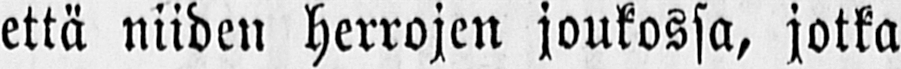että niiden herrojen joukossa, jotka
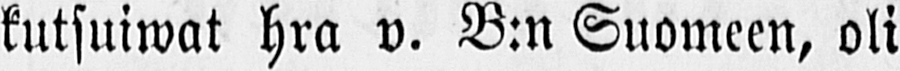kutsuiwat hra v. B:n Suomeen, oli
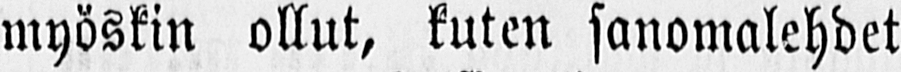myöskin ollut, kuten sanomalehdet
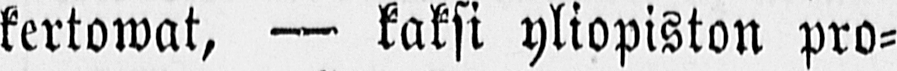kertowat, — kaksi yliopiston pro-
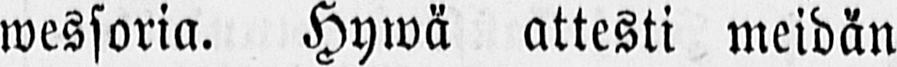wessoria. Hywä attesti meidän
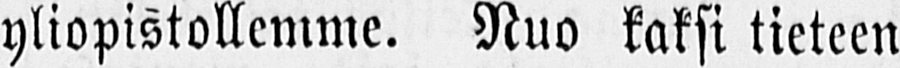yliopistollemme. Nuo kaksi tieteen
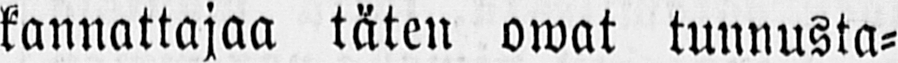kannattajaa täten owat tunnusta-
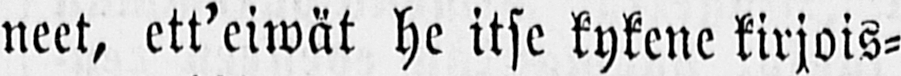neet, ett'eiwät he itse kykene kirjois-
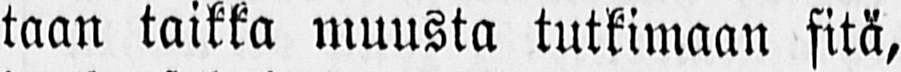taan taikka muusta tutkimaan sitä,
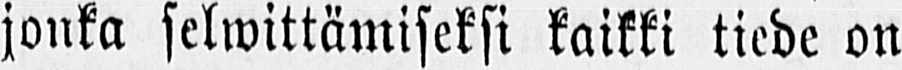jonka selwittämiseksi kaikki tiede on
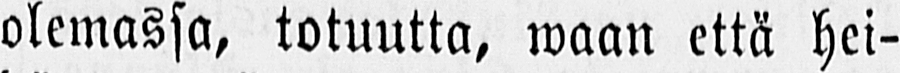olemassa, totuutta, waan että hei-
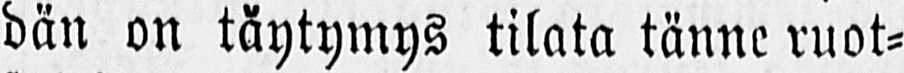dän on täytymys tilata tänne ruot-
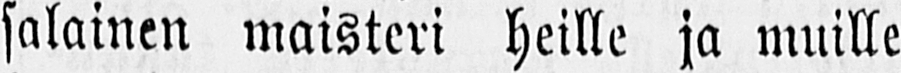salainen maisteri heille ja muille
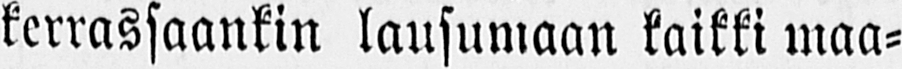kerrassaankin lausumaan kaikki maa-
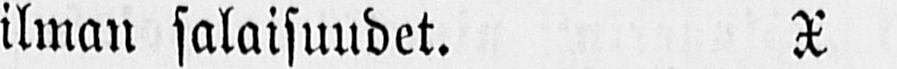ilman salaisuudet. X
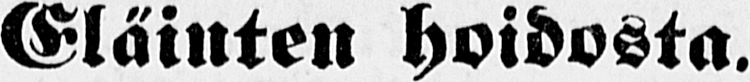Eläinten hoidosta.
